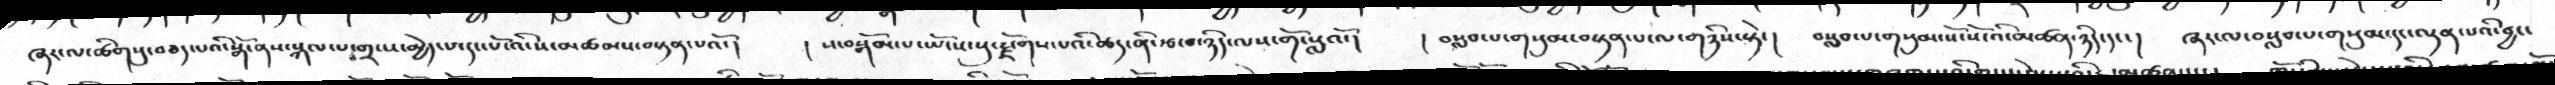ཞར་ལ་ཚིགསུ་བཅད་པའི་སྒོ་ནས་སྐལ་པ་གྲངས་མྱེད་པ་དང་པོ་འི་ས་མཚམས་བསྟན་པའོ་།     ། ས་བསྒོམ་པ་ཡོངས་སུ་རྫོགས་པའི་ཚད་ནི་རྩ་བ་ཉིད་ལས་གོ་སླའོ་།    ། བསླབ་པ་གསུམ་བསྟན་པ་ལ་གཉིས་སྟེ་།    བསླབ་པ་གསུམ་སོ་སོ་འི་མཚན་ཉིད་དང་།    ཞར་ལ་བསླབ་པ་གསུམ་དང་ལྡན་པའི་བྱང་
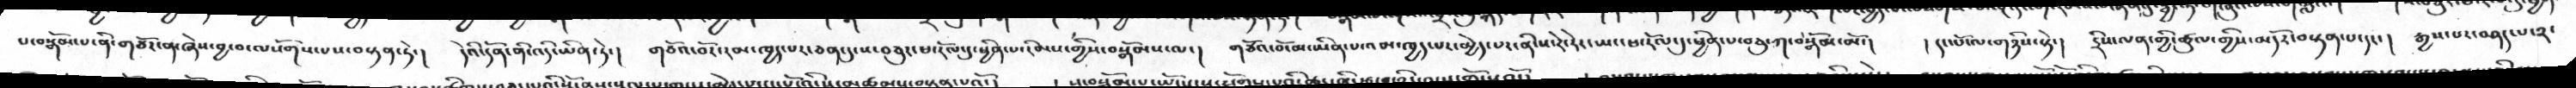པ་བསྒོམ་པ་ནི་གཙོར་ན་ཞེས་བྱ་བ་ལསོགས་པས་བསྟན་ཏེ་།    དེའི་དོན་ནི་འདི་ཡིན་ཏེ་།    གཙོ་བོར་རམ་ཁྱད་པར་ཅན་དུ་ས་བཅུར་ཕ་རོལ་དུ་ཕྱིན་པ་རིམས་གྱིས་བསྒོམས་ལ་།   གཙོའ་བོ་མ་ཡིན་པ་འམ་ཁྱད་པར་མྱེད་པར་ནི་ས་རེ་རེར་ཡང་ཕ་རོལ་དུ་ཕྱིན་པ་བཅུ་ཀ་བསྒོམ་མོ་།    ། དང་པོ་ལ་གཉིས་སྟེ་།    དྲིས་ལན་གྱི་ཚུལ་གྱིས་མདོར་བསྟན་པ་དང་།    རྒྱས་པར་བཤད་པ་༢་
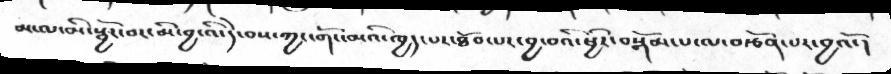མ་ལ་མི་སྦྱོར་བར་མི་བྱ་འི་དེ་བས་ཀྱང་གོང་མའི་ཁྱད་པར་ཐོབ་པར་བྱ་བའི་ཕྱིར་བསྒོམ་པ་ལ་བརྩོན་པར་བྱའོ་།
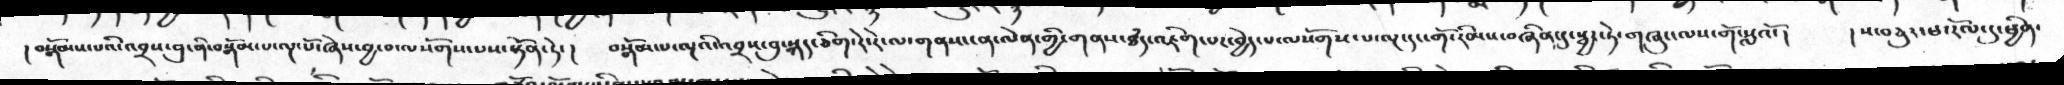། བསྒོམས་པའི་འབྲས་བུ་ནི་བསྒོམ་པ་ལྔ་པོ་ཞེས་བྱ་བ་ལསོགས་པས་སྟོན་ཏེ་།   བསྒོམ་པ་ལྔའི་འབྲས་བུ་སྐད་ཅིག་རེ་རེ་ལ་གནས་ན་ལེན་གྱི་གནས་ཐཾད་འཇིག་པར་བྱེད་པ་ལསོགས་པ་ལྔ་དང་གོ་རིམས་བཞིན་དུ་སྦྱར་ཏེ་གཞུང་ལས་གོ་སླའོ་།    ། ས་བཅུར་ཕ་རོལ་དུ་ཕྱིན་
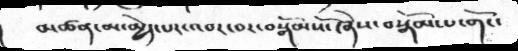མཚན་མ་མྱེད་པར་འབར་བར་བསྒོམསོ་ཞེས་བསྒོམ་པ་གོང་
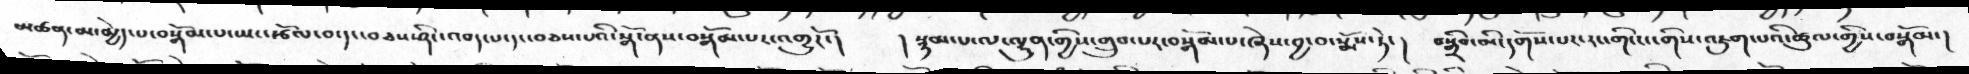མཚན་མ་མྱེད་པ་བསྒོམ་པ་ཡང་རྩོལ་བ་དང་བཅས་ནི་འབད་པ་དང་བཅས་པའི་སྒོ་ནས་བསྒོམ་པར་འགྱུརོ་།  སྙམ་པ་ལ་ལྷུན་གྱིས་གྲུབ་པར་བསྒོམ་པ་ཞེས་བྱ་བ་སྨོས་ཏེ་།  བསྒྲིབ་མི་དགོས་པར་རང་གི་ངང་གིས་འཇུག་པའི་ཚུལ་གྱིས་བསྒོམ་།
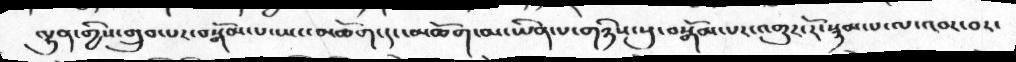ལྷུན་གྱིས་གྲུབ་པར་བསྒོམ་པ་ཡང་མཆོག་དང་མཆོག་མ་ཡིན་པ་གཉིས་སུ་བསྒོམ་པར་འགྱུར་རོ་སྙམ་པ་ལ་འབར་བར་
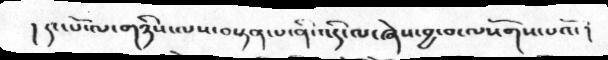། དང་པོ་ལ་གཉིས་ལས་བསྟན་པ་ནི་འདི་ལ་ཞེས་བྱ་བ་ལསོགས་པའོ་།
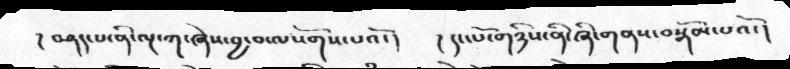།  བཤད་པ་ནི་ལྔ་ཀ་ཞེས་བྱ་བ་ལསོགས་པའོ་།   ། དང་པོ་གཉིས་ནི་ཞི་གནས་བསྒོམ་པའོ་།
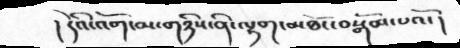། དེའི་འོག་མ་གཉིས་ནི་ལྷག་མཐོང་བསྒོམ་པའོ་།
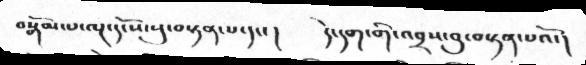བསྒོམ་པ་ལྔ་དངོས་སུ་བསྟན་པ་དང་།   དེ་དག་གི་འབྲས་བུ་བསྟན་པའོ་།
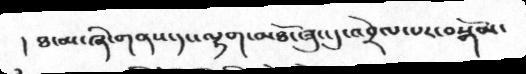། ཐ་མ་ཞི་གནས་དང་ལྷག་མཐོང་ཟུང་དུ་འབྲེལ་པར་བསྒོམ་
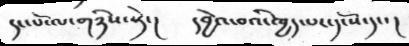དང་པོ་ལ་གཉིས་སྟེ་།      དབྱེའ་བའི་ཁྱད་པར་དངོས་དང་།
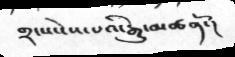གྲངས་ངེས་པའི་རྒྱུ་མཚནོ་།
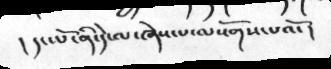། དང་པོ་ནི་དེ་ལ་ཞེས་པ་ལསོགས་པའོ་།
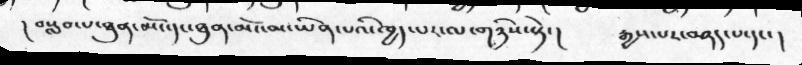།    བསླབ་པ་ཐུན་མོང་དང་ཐུན་མོ་མ་ཡིན་པའི་ཁྱད་པར་ལ་གཉིས་སྟེ་།    རྒྱས་པར་བཤད་པ་དང་།
